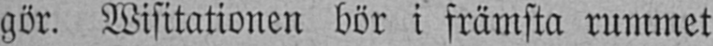gör. Wisitationen bör i främsta rummet
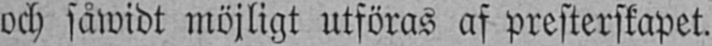och såwidt möjligt utföras af presterskapet.
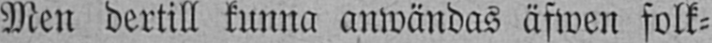Men dertill kunna anwändas äfwen folk-
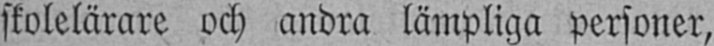skolelärare och andra lämpliga personer,
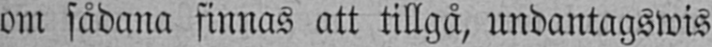om sådana finnas att tillgå, undantagswis
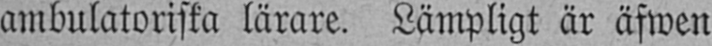ambulatoriska lärare. Lämpligt är äfwen
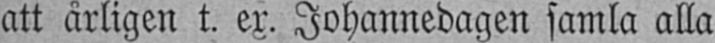att årligen t. ex. Johannedagen samla alla
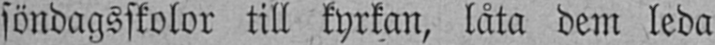söndagsskolor till kyrkan, låta dem leda
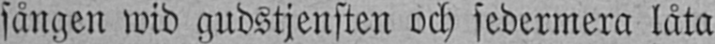sången wid gudstjensten och sedermera låta
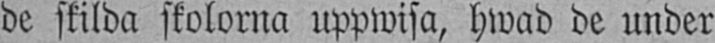de skilda skolorna uppwisa, hwad de under
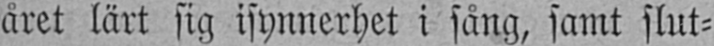året lärt sig isynnerhet i sång, samt slut-
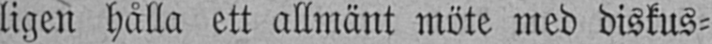ligen hålla ett allmänt möte med diskus-
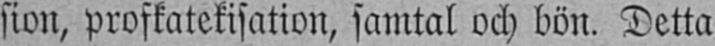sion, profkatekisation, samtal och bön. Detta
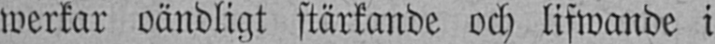werkar oändligt stärkande och lifwande i
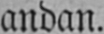andan.
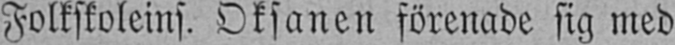Folkskoleins. Oksanen förenade sig med
